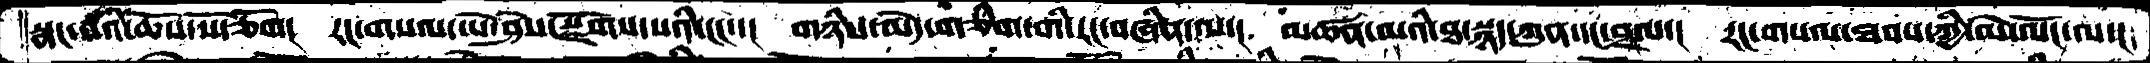སྣང་བའི་ཆོས་སོ་ཅོག།  རང་གསལ་ཡེ་ཤེས་སྫོགས་པའི་ངང་་།  གཉིས་མེད་གཅིག་གི་རང་བཞིན་ལ་།  མཚན་མའི་ཐ་སྙད་ཀུན་དང་བྲལ་།  རང་གསལ་ཐབས་ཀྱི་མེ་ལོང་ལ་།
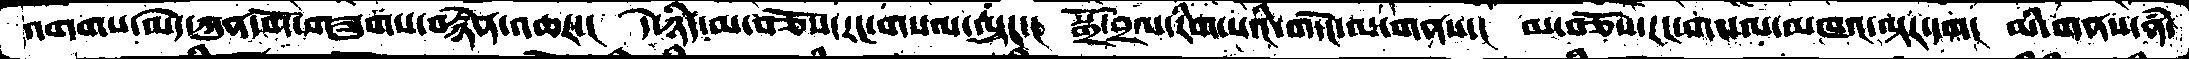འགགས་མེད་ཀུན་གོ་གཟུགས་བརྙེན་འཆར་།  དེ་ཉིད་མ་བཅོས་རང་གསལ་ལྟར་།  སྒྲོ་བྲལ་རིག་པའི་གདོང་ལ་གནས་།  མ་བཅོས་རང་གསལ་མཁའ་ལྟར་དག།  མི་གནས་ནཾ་
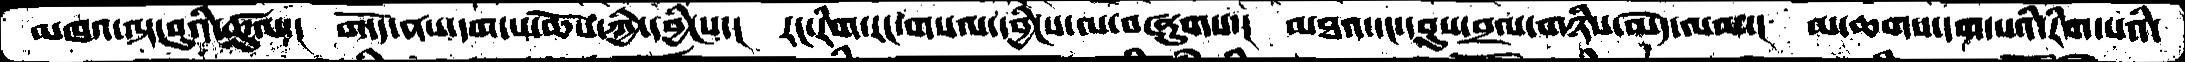མཁའ་ལྟ་བུའི་ཚུལ་།  གདོད་ནས་དག་པ་ཆོས་ཀྱི་དབྱིངས་།  རང་རིག་རང་གསལ་དབྱིངས་ལ་བཞུགས་།  མཐའ་དང་དབུས་བྲལ་གཉིས་མེད་ལམ་།  མ་ཆགས་དག་པའི་རིག་པའི་
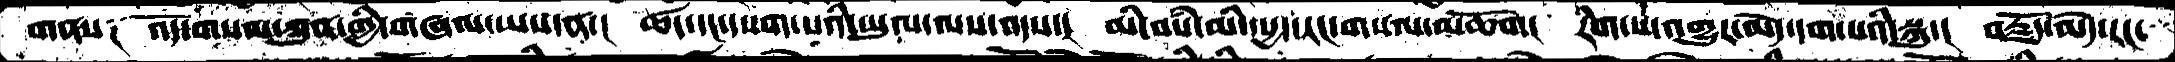གནས༑  འོད་གསལ་ཀུན་གྱི་གཞལ་ཡས་ན་།  ཚང་དང་དཔག་པའི་ཡུལ་ལས་འདས་།  མི་བསམ་མི་དཔྱད་རང་གསལ་མཆོག།  རིག་པ་འགྱུར་མེད་དག་པའི་སྐུ་།  བརྗོད་མེད་རང་
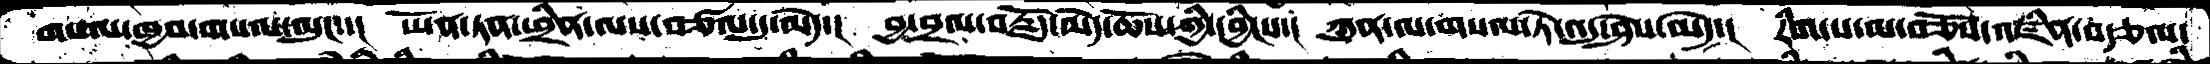གསལ་ཁྱབ་གསལ་ལུང་་།  ཡོན་ཏན་ཕྲིན་ལས་བཙལ་དུ་མེད་།  བྱ་བྲལ་བརྗོད་མེད་ཆོས་ཀྱི་དབྱིངས་།  ཀུན་ལ་གསལ་ཏེ་འདུ་ཤེས་མེད་།  རིག་པ་མ་བཅོས་འཛིན་བརྩལ་
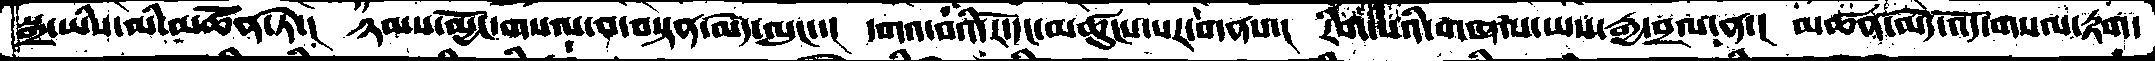སྒྲ་ཡིས་མི་མཚོན་ཏེ་།  ཉམས་མྱོང་གསལ་བ་བསྟན་མེད་ལུང་་།  དགའ་བའི་རོ་དང་མཚུངས་པར་གནས་།  རིག་པའི་གཞལ་ཡས་རྒྱ་བྲལ་ན་།  མཚན་མེད་འོད་གསལ་རྟག་
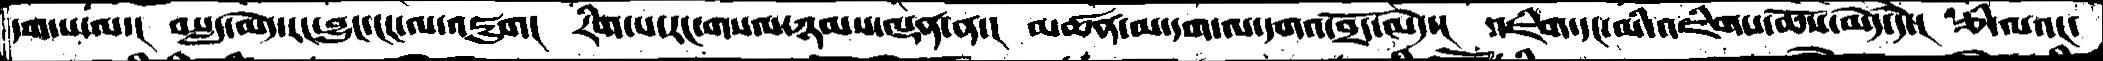དག་པ་ལ་།   བསླད་མེད་རང་བྱུང་ངང་ལ་འཇུག།  རིག་པ་རང་གསལ་ཉམས་ལྡན་ན་།  མཚན་མ་དག་ལ་དགའ་བྲོད་མེད་།  འཇིག་དང་མི་འཇིགས་ཆོས་མེད་དེ་།  ཅི་ལའང་
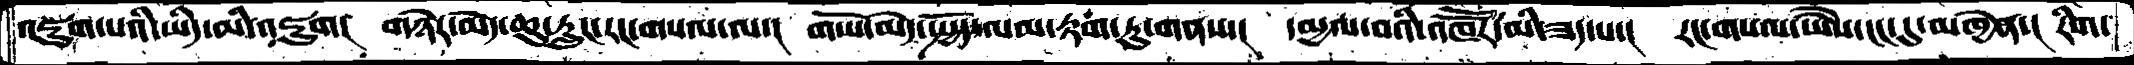འཇུག་པའི་ཡིད་མི་འཇུག།   གཉེར་མེད་ཆུ་རླུང་རང་གསལ་ལ་།  གཡོ་མེད་སྤྱོད་ལམ་རྟག་ཏུ་གནས་།  དམྱལ་བའི་འཁཽར་མི་ཟད་པ་།  རང་གསལ་ཡཻས་ངང་དུ་མཁྱེན་།  རིག་
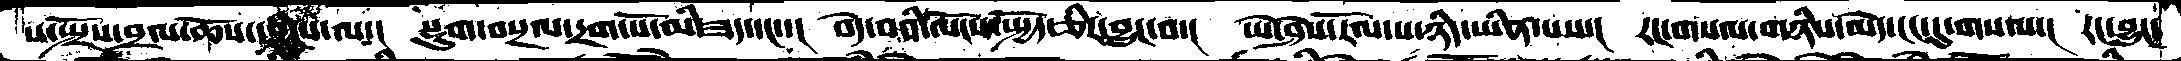པ་སྤྲོས་བྲལ་ཆོས་དབྱིངས་ལ་།  སྡུག་བསྔལ་དྲག་པོ་མི་ཟད་དང་་།   བདེ་བའི་ལོངས་སྤྱོད་ཅིར་བྱུང་བ་།   ཡེ་ཤེས་རོལ་པ་ཉིད་ཡིན་པས་།  རང་གསལ་གཉིས་མེད་ངང་དུ་གསལ་།   རང་བྱུང་
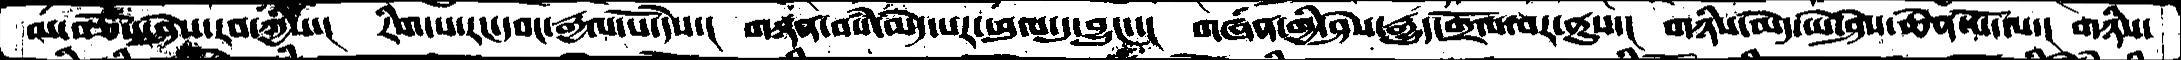མ་བཅོས་ཤེས་རབ་ཀྱིས་།  རིག་པ་རང་དབང་རྒྱལ་པོ་དེས་།  གཉན་བསཾ་མེད་པར་ཕུལ་དུ་བྱུང་་།  གཞན་གྱི་ཤེས་རྒྱུད་གྲོལ་བར་ནུས་།  གཉིས་མེད་ཡེ་ཤེས་ཆེན་པོ་ལ་།  གཉིས་
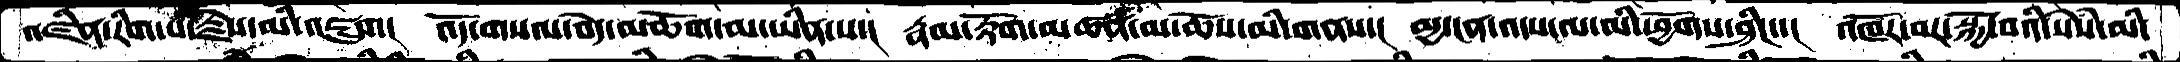འཛིན་རིག་པ་རྗེས་མི་འཇུག།   འོད་གསལ་བདེ་མཆོག་མ་ཡིན་པ་།  རྣམ་རྟོག་མཚན་མ་ཆོས་མི་གནས་།  མྱ་ངན་འདས་ལ་མི་ཕྱོགས་ཤིང་་།  འཁོར་བར་སྐྱོ་བའི་སེཾས་མི་
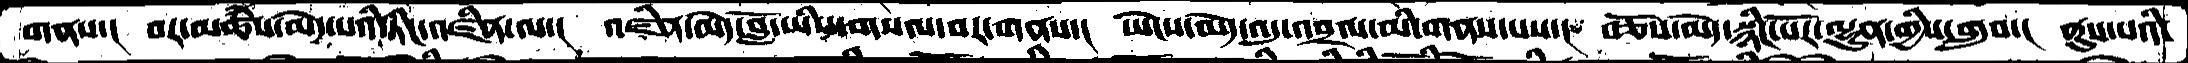གནས་།  བར་མཚཾས་མེད་པའི་ཏིང་འཛིན་ལ་།  འཛིན་མེད་བློ་ཡིས་གསལ་བར་གནས་།  ཡེངས་མེད་འདུ་བྲལ་མིི་གནས་པས་།  བཅོས་མེད་སྙིང་པོར་ལྷུན་གྱིས་གྲུབ་།  ནུས་པའི་
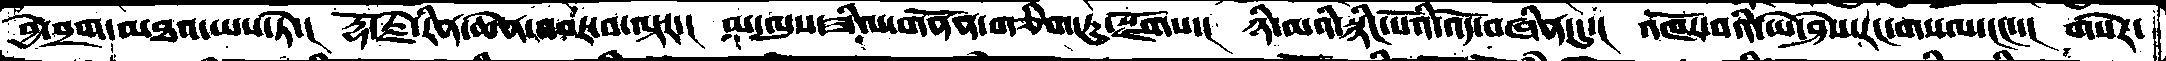བྱེ་བྲག་མཐའ་ཡས་ཏེ་།  རྡོ་རྗེ་རིན་ཆེན་འབར་བ་ལྟར་།  མ་ལུས་ཟིལ་གནོན་གཅིག་ཏུ་སྫོགས་།  ཉི་མའི་སྙིང་པོའི་འོད་བཞིན་དུ་།  འཁོར་བའི་ཡེ་ཤེས་རང་གསལ་ངང་་།  གསེར་
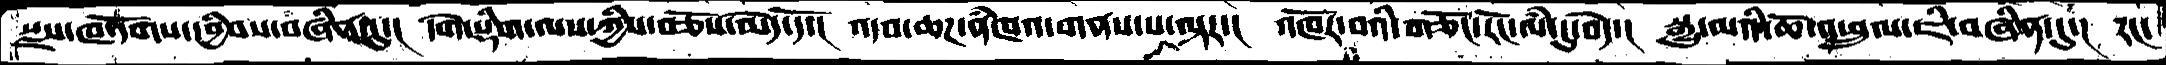སྫས་ཁ་དོགས་དབྱིབས་བཞིན་དུ་།  དགེ་སྡིག་ལས་ཀྱིས་བཅོས་མེད་དོ་།  འདབ་ཆཌ་ནཾཁའ་གནས་པ་ལྟར་།  འཁོར་བའི་གཅོང་རོང་ལཾ་དུ་བདེ་།  སྒྱུ་མའི་ཆོ་འཕྲུལ་ཇི་བཞིན་དུ་།  རང་
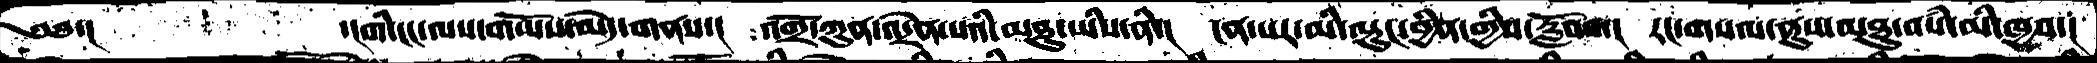༄༅་།         ་།གི་ངང་ལས་གཡོས་མེད་གནས་།  འགྲོ་ཀུན་འདྲེན་པའི་མཐུ་ཡི་ནི་།  ངན་པར་མི་ལྟུང་བྱིན་གྱིས་རློབས་།  རང་གསལ་ནུས་མཐུ་བསཾ་མི་ཁྱབ་།
